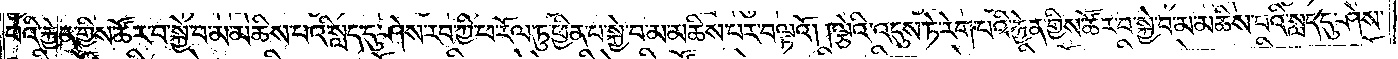པའི་རྐྱེན་གྱིས་ཚོར་བ་སྐྱེ་བ་མི་མཆིས་པའི་སླད་དུ་ཤེས་རབ་ཀྱི་ཕ་རོལ་ཏུ་ཕྱིན་པ་སྐྱེ་བ་མ་མཆིས་པར་བལྟའོ། །ལྕེའི་འདུས་ཏེ་རེག་པའི་རྐྱེན་གྱིས་ཚོར་བ་སྐྱེ་བ་མ་མཆིས་པའི་སླད་དུ་ཤེས་
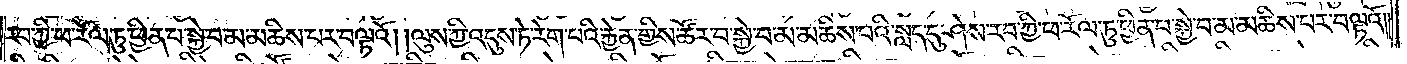རབ་ཀྱི་ཕ་རོལ་ཏུ་ཕྱིན་པ་སྐྱེ་བ་མ་མཆིས་པར་བལྟའོ། །ལུས་ཀྱི་འདུས་ཏེ་རེག་པའི་རྐྱེན་གྱིས་ཚོར་བ་སྐྱེ་བ་མ་མཆིས་པའི་སླད་དུ་ཤེས་རབ་ཀྱི་ཕ་རོལ་ཏུ་ཕྱིན་པ་སྐྱེ་བ་མ་མཆིས་པར་བལྟའོ། །
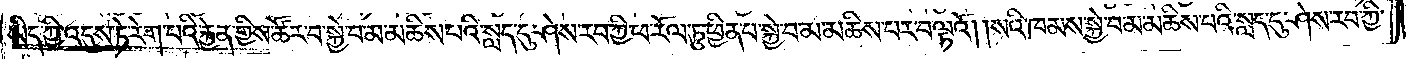ཡིད་ཀྱི་འདུས་ཏེ་རེག་པའི་རྐྱེན་གྱིས་ཚོར་བ་སྐྱེ་བ་མ་མཆིས་པའི་སླད་དུ་ཤེས་རབ་ཀྱི་ཕ་རོལ་ཏུ་ཕྱིན་པ་སྐྱེ་བ་མ་མཆིས་པར་བལྟའོ། །སའི་ཁམས་སྐྱེ་བ་མ་མཆིས་པའི་སླད་དུ་ཤེས་རབ་ཀྱི་
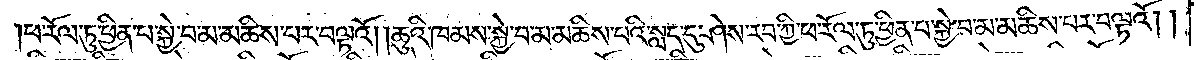ཕ་རོལ་ཏུ་ཕྱིན་པ་སྐྱེ་བ་མ་མཆིས་པར་བལྟའོ། །ཆུའི་ཁམས་སྐྱེ་བ་མ་མཆིས་པའི་སླད་དུ་ཤེས་རབ་ཀྱི་ཕ་རོལ་ཏུ་ཕྱིན་པ་སྐྱེ་བ་མ་མཆིས་པར་བལྟའོ། །
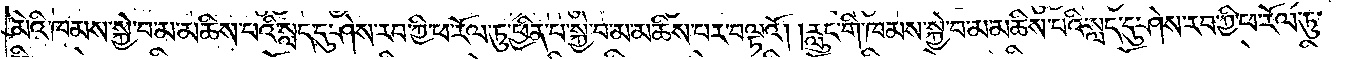མེའི་ཁམས་སྐྱེ་བ་མ་མཆིས་པའི་སླད་དུ་ཤེས་རབ་ཀྱི་ཕ་རོལ་ཏུ་ཕྱིན་པ་སྐྱེ་བ་མ་མཆིས་པར་བལྟའོ། །རླུང་གི་ཁམས་སྐྱེ་བོ་མ་མཆིས་པའི་སླད་དུ་ཤེས་རབ་ཀྱི་ཕ་རོལ་ཏུ་
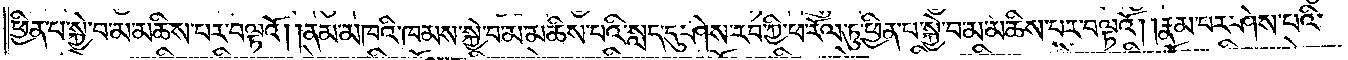ཕྱིན་པ་སྐྱེ་བ་མ་མཆིས་པར་བལྟའོ། །ནམ་མཁའི་ཁམས་སྐྱེ་བ་མ་མཆིས་པའི་སླད་དུ་ཤེས་རབ་ཀྱི་ཕ་རོལ་ཏུ་ཕྱིན་པ་སྐྱེ་བ་མ་མཆིས་པར་བལྟའོ། །རྣམ་པར་ཤེས་པའི་
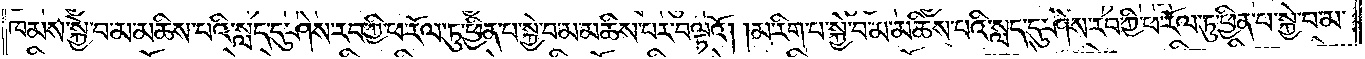ཁམས་སྐྱེ་བ་མ་མཆིས་པའི་སླད་དུ་ཤེས་རབ་ཀྱི་ཕ་རོལ་ཏུ་ཕྱིན་པ་སྐྱེ་བ་མ་མཆིས་པར་བལྟའོ། །མ་རིག་པ་སྐྱེ་བ་མ་མཆིས་པའི་སླད་དུ་ཤེས་རབ་ཀྱི་ཕ་རོལ་ཏུ་ཕྱིན་པ་སྐྱེ་བ་མ་
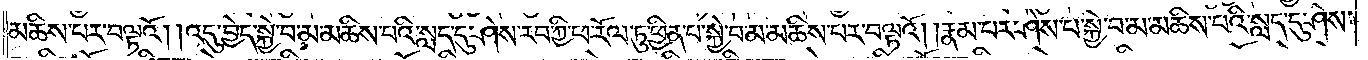མཆིས་པར་བལྟའོ། །འདུ་བྱེད་སྐྱེ་བ་མ་མཆིས་པའི་སླད་དུ་ཤེས་རབ་ཀྱི་ཕ་རོལ་ཏུ་ཕྱིན་པ་སྐྱེ་བ་མ་མཆིས་པར་བལྟའོ། །རྣམ་པར་ཤེས་པ་སྐྱེ་བ་མ་མཆིས་པའི་སླད་དུ་ཤེས་
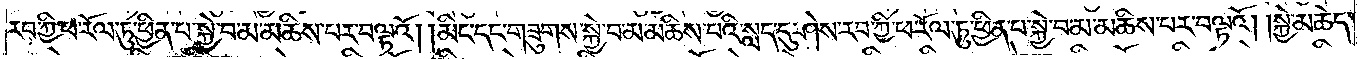རབ་ཀྱི་ཕ་རོལ་ཏུ་ཕྱིན་པ་སྐྱེ་བ་མ་མཆིས་པར་བལྟའོ། །མིང་དང་གཟུགས་སྐྱེ་བ་མ་མཆིས་པའི་སླད་དུ་ཤེས་རབ་ཀྱི་ཕ་རོལ་ཏུ་ཕྱིན་པ་སྐྱེ་བ་མ་མཆིས་པར་བལྟའོ། །སྐྱེ་མཆེད་
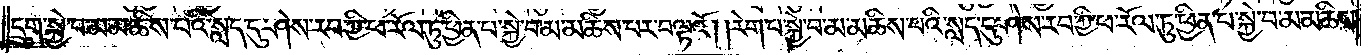དྲུག་སྐྱེ་བ་མ་མཆིས་པའི་སླད་དུ་ཤེས་རབ་ཀྱི་ཕ་རོལ་ཏུ་ཕྱིན་པ་སྐྱེ་བ་མ་མཆིས་པར་བལྟའོ། །རེག་པ་སྐྱེ་བ་མ་མཆིས་པའི་སླད་དུ་ཤེས་རབ་ཀྱི་ཕ་རོལ་ཏུ་ཕྱིན་པ་སྐྱེ་བ་མ་མཆིས་
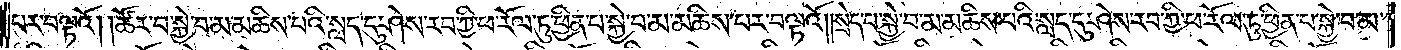པར་བལྟའོ། །ཚོར་བ་སྐྱེ་བ་མ་མཆིས་པའི་སླད་དུ་ཤེས་རབ་ཀྱི་ཕ་རོལ་ཏུ་ཕྱིན་པ་སྐྱེ་བ་མ་མཆིས་པར་བལྟའོ། །སྲེད་པ་སྐྱེ་བ་མ་མཆིས་པའི་སླད་དུ་ཤེས་རབ་ཀྱི་ཕ་རོལ་ཏུ་ཕྱིན་པ་སྐྱེ་བ་མ་
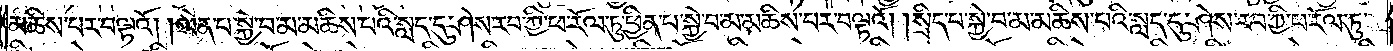མཆིས་པར་བལྟའོ། །ལེན་པ་སྐྱེ་བ་མ་མཆིས་པའི་སླད་དུ་ཤེས་རབ་ཀྱི་ཕ་རོལ་ཏུ་ཕྱིན་པ་སྐྱེ་བ་མ་མཆིས་པར་བལྟའོ། །སྲིད་པ་སྐྱེ་བ་མ་མཆིས་པའི་སླད་དུ་ཤེས་རབ་ཀྱི་ཕ་རོལ་ཏུ་
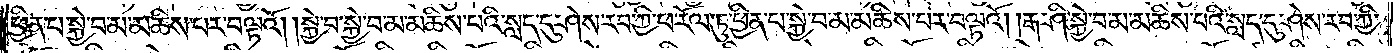ཕྱིན་པ་སྐྱེ་བ་མ་མཆིས་པར་བལྟའོ། །སྐྱེ་བ་སྐྱེ་བ་མ་མཆིས་པའི་སླད་དུ་ཤེས་རབ་ཀྱི་ཕ་རོལ་ཏུ་ཕྱིན་པ་སྐྱེ་བ་མ་མཆིས་པར་བལྟའོ། །རྒ་ཤི་སྐྱེ་བ་མ་མཆིས་པའི་སླད་དུ་ཤེས་རབ་ཀྱི་
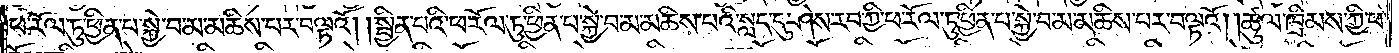ཕ་རོལ་ཏུ་ཕྱིན་པ་སྐྱེ་བ་མ་མཆིས་པར་བལྟའོ། །སྦྱིན་པའི་ཕ་རོལ་ཏུ་ཕྱིན་པ་སྐྱེ་བ་མ་མཆིས་པའི་སླད་དུ་ཤེས་རབ་ཀྱི་ཕ་རོལ་ཏུ་ཕྱིན་པ་སྐྱེ་བ་མ་མཆིས་པར་བལྟའོ། །ཚུལ་ཁྲིམས་ཀྱི་ཕ་
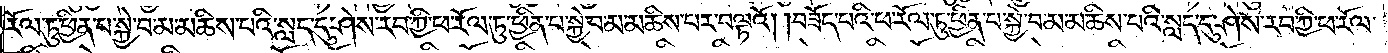རོལ་ཏུ་ཕྱིན་པ་སྐྱེ་བ་མ་མཆིས་པའི་སླད་དུ་ཤེས་རབ་ཀྱི་ཕ་རོལ་ཏུ་ཕྱིན་པ་སྐྱེ་བ་མ་མཆིས་པར་བལྟའོ། །བཟོད་པའི་ཕ་རོལ་ཏུ་ཕྱིན་པ་སྐྱེ་བ་མ་མཆིས་པའི་སླད་དུ་ཤེས་རབ་ཀྱི་ཕ་རོལ་
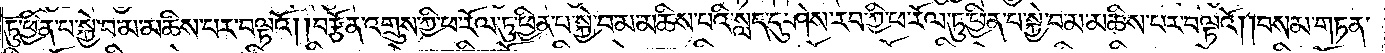ཏུ་ཕྱིན་པ་སྐྱེ་བ་མ་མཆིས་པར་བལྟའོ། །བརྩོན་འགྲུས་ཀྱི་ཕ་རོལ་ཏུ་ཕྱིན་པ་སྐྱེ་བ་མ་མཆིས་བའི་སླད་དུ་ཤེས་རབ་ཀྱི་ཕ་རོལ་ཏུ་ཕྱིན་པ་སྐྱེ་བ་མ་མཆིས་པར་བལྟའོ། །བསམ་གཏན་
